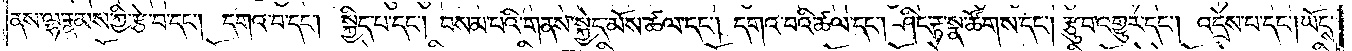ནས་ལྷ་རྣམས་ཀྱི་རྩེ་བ་དང༌། དགའ་བ་དང༌། སྐྱིད་པ་དང༌། བསམ་པའི་གནས་སྐྱེད་མོས་ཚལ་དང༌། དགའ་བའི་ཚལ་དང༌། ཤིང་རྟ་སྣ་ཚོགས་དང༌། རྩུབ་འགྱུར་དང༌། འདྲེས་པ་དང༌། ཡོངས་
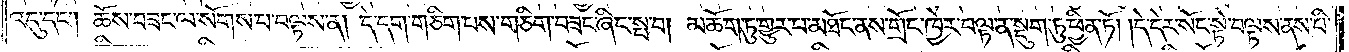འདུ་དང༌། ཆོས་བཟང་ལ་སོགས་པ་བལྟས་ན། དེ་དག་གཅིག་པས་གཅིག་བཟང་ཞིང་སྤ་བ། མཆོག་ཏུ་གྱུར་པ་མཐོང་ནས་གྲོང་ཁྱེར་བལྟ་ན་སྡུག་ཏུ་ཕྱིན་ཏོ། །དེ་དེར་སོང་སྟེ་བལྟས་ནས་པི་
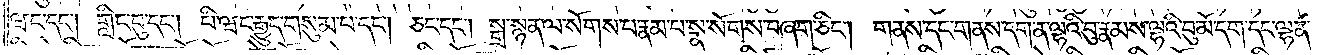ཝང་དང༌། གླིང་བུ་དང༌། པི་ཝང་རྒྱུད་གསུམ་པ་དང༌། ཅང་དང༌། སྒྲ་སྙན་ལ་སོགས་པ་རྣམ་པ་སྣ་སོགས་བཞག་ཅིང༌། གནས་དང་གནས་དག་ན་ལྷའི་བུ་རྣམས་ལྷའི་བུ་མོ་དག་དང་ལྷན་
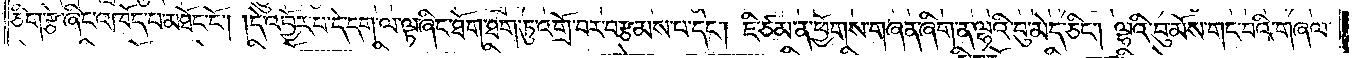ཅིག་རྩེ་ཞིང་འཁོད་པ་མཐོང་ངོ༌། །དེ་འབྱོར་པ་དེ་དག་ལ་ལྟ་ཞིང་ཐོག་ཐག་ཏུ་འགྲོ་བར་བརྩམས་པ་དང༌། ཇི་ཙམ་ན་ཕྱོགས་གཞན་ཞིག་ན་ལྷའི་བུ་མེད་ཅིང༌། ལྷའི་བུ་མོས་གང་བའི་གཞལ་
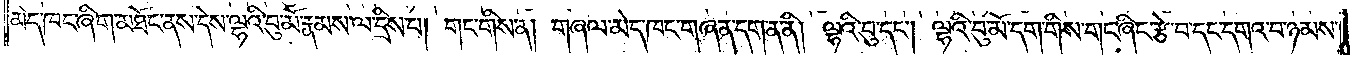མེད་ཁང་ཞིག་མཐོང་ནས་དེས་ལྷའི་བུ་མོ་རྣམས་ལ་དྲིས་པ། གང་གིས་ན། གཞལ་མེད་ཁང་གཞན་དག་ན་ནི། ལྷའི་བུ་དང༌། ལྷའི་བུ་མོ་དག་གིས་གང་ཞིང་རྩེ་བ་དང་དགའ་བ་ཉམས་
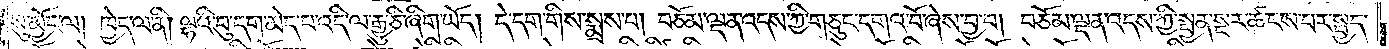སུ་མྱོང་ལ། ཁྱེད་ལ་ནི། ལྷའི་བུ་དག་མེད་པ་འདི་ལ་རྒྱུ་ཅི་ཞིག་ཡོད། དེ་དག་གིས་སྨྲས་པ། བཅོམ་ལྡན་འདས་ཀྱི་གཅུང་དགའ་བོ་ཞེས་བྱ་བ། བཅོམ་ལྡན་འདས་ཀྱི་སྤྱན་སྔར་ཚངས་པར་སྤྱད་
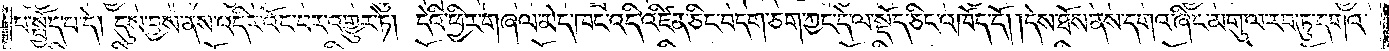པ་སྤྱོད་པ་དེ། དུས་བྱས་ནས་འདིར་འོང་བར་འགྱུར་ཏེ། དེའི་ཕྱིར་གཞལ་མེད་ཁང་འདི་འཛིན་ཅིང་བདག་ཅག་ཀྱང་དེ་ལ་སྡོད་ཅིང་འཁོད་དོ། །དེས་ཐོས་ནས་དགའ་ཞིང་མགུ་ལ་རབ་ཏུ་དགའ་
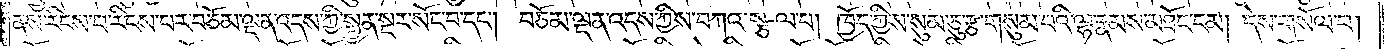ནས་རིངས་པ་རིངས་པར་བཅོམ་ལྡན་འདས་ཀྱི་སྤྱན་སྔར་སོང་བ་དང༌། བཅོམ་ལྡན་འདས་ཀྱིས་བཀའ་སྩལ་པ། ཁྱོད་ཀྱིས་སུམ་ཅུ་རྩ་གསུམ་པའི་ལྷའི་རྣམས་མཐོང་ངམ། དེས་གསོལ་པ།
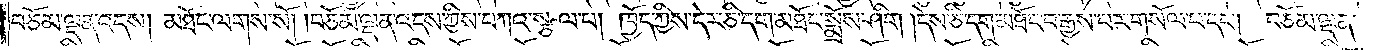བཅོམ་ལྡན་འདས། མཐོང་ལགས་སོ། །བཅོམ་ལྡན་འདས་ཀྱིས་བཀའ་སྩལ་པ། ཁྱོད་ཀྱིས་དེར་ཅི་དག་མཐོང་སྨྲོས་ཤིག །དེས་ཅི་དག་མཐོང་བ་རྒྱས་པར་གསོལ་པ་དང༌། བཅོམ་ལྡན་
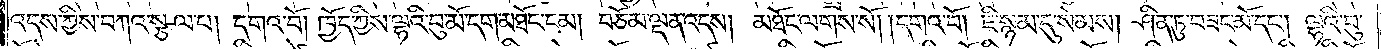འདས་ཀྱིས་བཀའ་སྩལ་པ། དགའ་བོ། ཁྱོད་ཀྱིས་ལྷའི་བུ་མོ་དག་མཐོང་ངམ། བཅོམ་ལྡན་འདས། མཐོང་ལགས་སོ། །དགའ་བོ། ཇི་སྙམ་དུ་སེམས། ཤིན་ཏུ་བཟང་མོ་དང༌། ལྷའི་བུ་
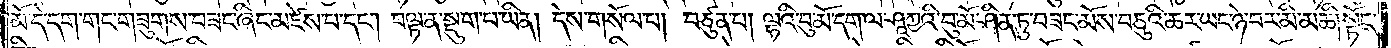མོ་དེ་དག་གང་གཟུགས་བཟང་ཞིང་མཛེས་པ་དང༌། བལྟ་ན་སྡུག་པ་ཡིན། དེས་གསོལ་པ། བཙུན་པ། ལྷའི་བུ་མོ་དག་ལ་ཤཱཀྱའི་བུ་མོ་ཤིན་ཏུ་བཟང་མོས་བཅུའི་ཆར་ཡང་ཉེ་བར་མི་མཆི། སྟོང་
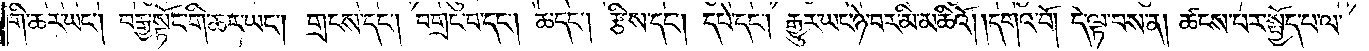གི་ཆར་ཡང༌། བརྒྱ་སྟོང་གི་ཆར་ཡང༌། གྲངས་དང༌། བགྲང་བ་དང༌། ཆ་དང༌། རྩིས་དང༌། དཔེ་དང༌། རྒྱུར་ཡང་ཉེ་བར་མི་མཆིའོ། །དགའ་བོ། དེ་ལྟ་བས་ན། ཚངས་པར་སྤྱོད་པ་ལ་
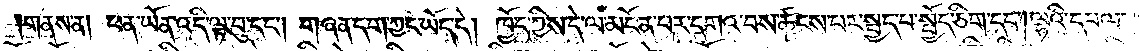གནས་ན། ཕན་ཡོན་འདི་ལྟ་བུ་དང༌། གཞན་དག་ཀྱང་ཡོད་དེ། ཁྱོད་ཀྱིས་དེ་ལ་མངོན་པར་དགའ་བས་ཚངས་པར་སྤྱད་པ་སྤྱོད་ཅིག་དང༌། ལྷའི་དཔལ་
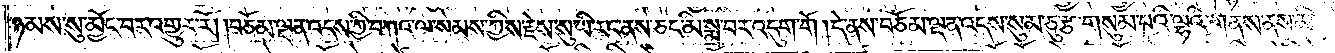ཉམས་སུ་མྱོང་བར་འགྱུར་རོ། །བཅོམ་ལྡན་འདས་ཀྱི་བཀའ་ལ་སེམས་ཀྱིས་རྗེས་སུ་ཡི་རང་ནས་ཅང་མི་སྨྲ་བར་འདུག་གོ །དེ་ནས་བཅོམ་ལྡན་འདས་སུམ་ཅུ་རྩ་གསུམ་པའི་ལྷའི་གནས་ནས་མི་
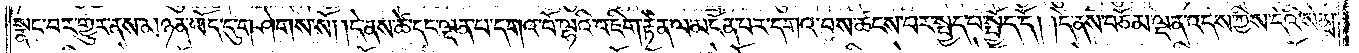སྣང་བར་གྱུར་ནས་མཉན་ཡོད་དུ་གཤེགས་སོ། །དེ་ནས་ཚེ་དང་ལྡན་པ་དགའ་བོ་ལྷའི་འཇིག་རྟེན་ལ་མངོན་པར་དགའ་བས་ཚངས་པར་སྤྱད་པ་སྤྱོད་དོ། །དེ་ནས་བཅོམ་ལྡན་འདས་ཀྱིས་དེའི་སེམས་
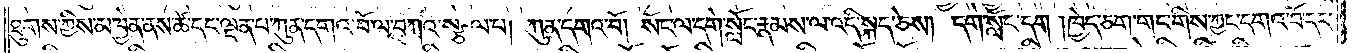ཐུགས་ཀྱིས་མཁྱེན་ནས་ཚེ་དང་ལྡན་པ་ཀུན་དགའ་བོ་ལ་བཀའ་སྩལ་པ། ཀུན་དགའ་བོ། སོང་ལ་དགེ་སློང་རྣམས་ལ་འདི་སྐད་ཅེས། དགེ་སློང་དག །ཁྱེད་ཅག་གང་གིས་ཀྱང་དགའ་བོ་དང་
